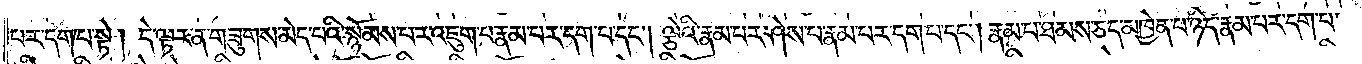པར་དག་པ་སྟེ། དེ་ལྟར་ན་གཟུགས་མེད་པའི་སྙོམས་པར་འཇུག་པ་རྣམ་པར་དག་པ་དང༌། ལྕེའི་རྣམ་པར་ཤེས་པ་རྣམ་པར་དག་པ་དང༌། རྣམ་པ་ཐམས་ཅད་མཁྱེན་པ་ཉིད་རྣམ་པར་དག་པ་
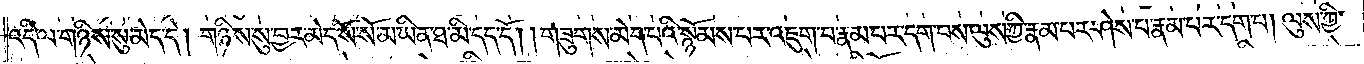འདི་ལ་གཉིས་སུ་མེད་དེ། གཉིས་སུ་བྱར་མེད་སོ་སོ་མ་ཡིན་ཐ་མི་དད་དོ། །གཟུགས་མེད་པའི་སྙོམས་པར་འཇུག་པ་རྣམ་པར་དག་པས་ལུས་ཀྱི་རྣམ་པར་ཤེས་པ་རྣམ་པར་དག་པ། ལུས་ཀྱི་
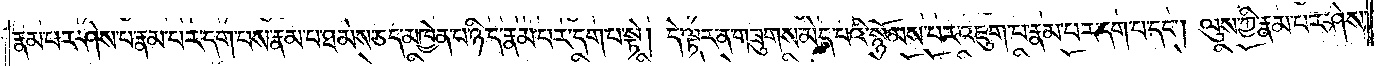རྣམ་པར་ཤེས་པ་རྣམ་པར་དག་པས་རྣམ་པ་ཐམས་ཅད་མཁྱེན་པ་ཉིད་རྣམ་པར་དག་པ་སྟེ། དེ་ལྟར་ན་གཟུགས་མེད་པའི་སྙོམས་པར་འཇུག་པ་རྣམ་པར་དག་པ་དང༌། ལུས་ཀྱི་རྣམ་པར་ཤེས་
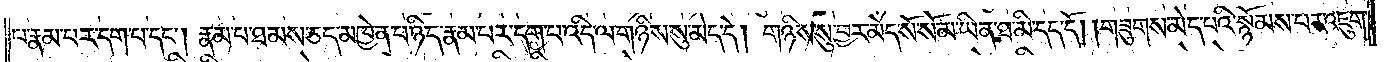པ་རྣམ་པར་དག་པ་དང༌། རྣམ་པ་ཐམས་ཅད་མཁྱེན་པ་ཉིད་རྣམ་པར་དག་པ་འདི་ལ་གཉིས་སུ་མེད་དེ། གཉིས་སུ་བྱར་མེད་སོ་སོ་མ་ཡིན་ཐ་མི་དད་དོ། །གཟུགས་མེད་པའི་སྙོམས་པར་འཇུག་
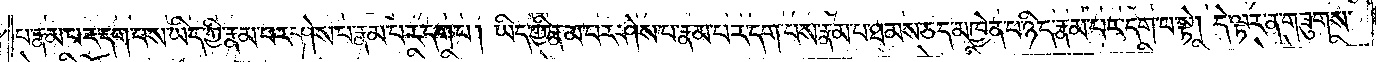པ་རྣམ་པར་དག་པས་ཡིད་ཀྱི་རྣམ་པར་ཤེས་པ་རྣམ་པར་དག་པ། ཡིད་ཀྱི་རྣམ་པར་ཤེས་པ་རྣམ་པར་དག་པས་རྣམ་པ་ཐམས་ཅད་མཁྱེན་པ་ཉིད་རྣམ་པར་དག་པ་སྟེ། དེ་ལྟར་ན་གཟུགས་
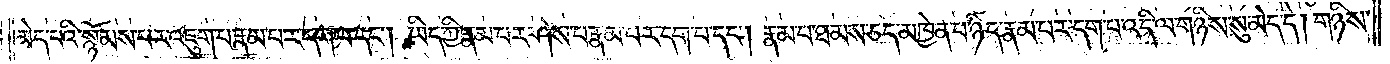མེད་པའི་སྙོམས་པར་འཇུག་པ་རྣམ་པར་དག་པ་དང༌། ཡིད་ཀྱི་རྣམ་པར་ཤེས་པ་རྣམ་པར་དག་པ་དང༌། རྣམ་པ་ཐམས་ཅད་མཁྱེན་པ་ཉིད་རྣམ་པར་དག་པ་འདི་ལ་གཉིས་སུ་མེད་དེ། གཉིས་
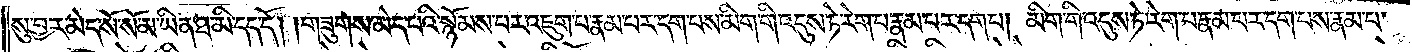སུ་བྱར་མེད་སོ་སོ་མ་ཡིན་ཐ་མི་དད་དོ། །གཟུགས་མེད་པའི་སྙོམས་པར་འཇུག་པ་རྣམ་པར་དག་པས་མིག་གི་འདུས་ཏེ་རེག་པ་རྣམ་པར་དག་པ། མིག་གི་འདུས་ཏེ་རེག་པ་རྣམ་པར་དག་པས་རྣམ་པ་
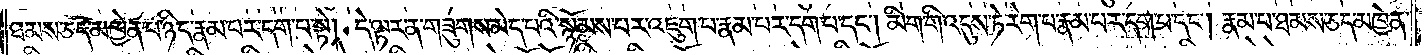ཐམས་ཅད་མཁྱེན་པ་ཉིད་རྣམ་པར་དག་པ་སྟེ། དེ་ལྟར་ན་གཟུགས་མེད་པའི་སྙོམས་པར་འཇུག་པ་རྣམ་པར་དག་པ་དང༌། མིག་གི་འདུས་ཏེ་རེག་པ་རྣམ་པར་དག་པ་དང༌། རྣམ་པ་ཐམས་ཅད་མཁྱེན་
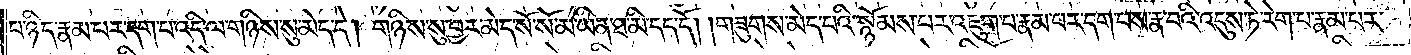པ་ཉིད་རྣམ་པར་དག་པ་འདི་ལ་གཉིས་སུ་མེད་དེ། གཉིས་སུ་བྱར་མེད་སོ་སོ་མ་ཡིན་ཐ་མི་དད་དོ། །གཟུགས་མེད་པའི་སྙོམས་པར་འཇུག་པ་རྣམ་པར་དག་པས་རྣམ་བའི་འདུས་ཏེ་རེག་པ་རྣམ་པར་
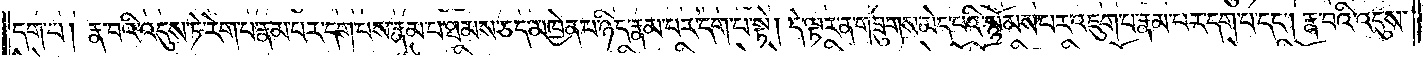དག་པ། རྣ་བའི་འདུས་ཏེ་རེག་པ་རྣམ་པར་དག་པས་རྣམ་པ་ཐམས་ཅད་མཁྱེན་པ་ཉིད་རྣམ་པར་དག་པ་སྟེ། དེ་ལྟར་ན་གཟུགས་མེད་པའི་སྙོམས་པར་འཇུག་པ་རྣམ་པར་དག་པ་དང༌། རྣ་བའི་འདུས་
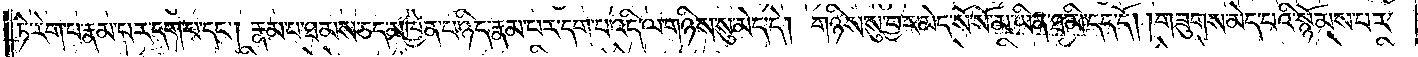ཏེ་རེག་པ་རྣམ་པར་དག་པ་དང༌། རྣམ་པ་ཐམས་ཅད་མཁྱེན་པ་ཉིད་རྣམ་པར་དག་པ་འདི་ལ་གཉིས་སུ་མེད་དེ། གཉིས་སུ་བྱར་མེད་སོ་སོ་མ་ཡིན་ཐ་མི་དད་དོ། །གཟུགས་མེད་པའི་སྙོམས་པར་
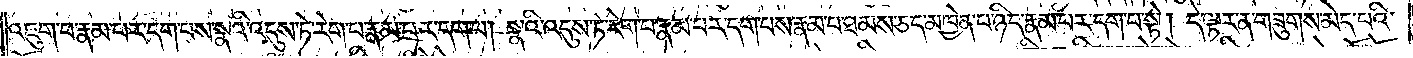འཇུག་པ་རྣམ་པར་དག་པས་སྣའི་འདུས་ཏེ་རེག་པ་རྣམ་པར་དག་པ། སྣའི་འདུས་ཏེ་རེག་པ་རྣམ་པར་དག་པས་རྣམ་པ་ཐམས་ཅད་མཁྱེན་པ་ཉིད་རྣམ་པར་དག་པ་སྟེ། དེ་ལྟར་ན་གཟུགས་མེད་པའི་
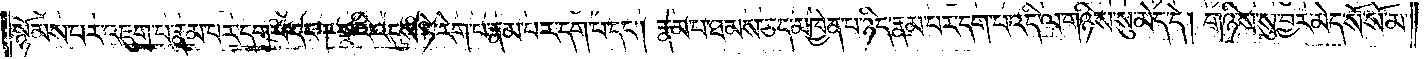སྙོམས་པར་འཇུག་པ་རྣམ་པར་དག་པ་དང༌། སྣའི་འདུས་ཏེ་རེག་པ་རྣམ་པར་དག་པ་དང༌། རྣམ་པ་ཐམས་ཅད་མཁྱེན་པ་ཉིད་རྣམ་པར་དག་པ་འདི་ལ་གཉིས་སུ་མེད་དེ། གཉིས་སུ་བྱར་མེད་སོ་སོ་མ་
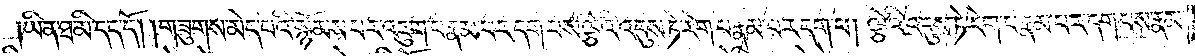ཡིན་ཐ་མི་དད་དོ། །གཟུགས་མེད་པའི་སྙོམས་པར་འཇུག་པ་རྣམ་པར་དག་པས་ལྕེའི་འདུས་ཏེ་རེག་པ་རྣམ་པར་དག་པ། ལྕེའི་འདུས་ཏེ་རེག་པ་རྣམ་པར་དག་པས་རྣམ་
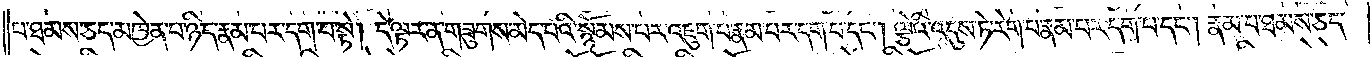པ་ཐམས་ཅད་མཁྱེན་པ་ཉིད་རྣམ་པར་དག་པ་སྟེ། དེ་ལྟར་ན་གཟུགས་མེད་པའི་སྙོམས་པར་འཇུག་པ་རྣམ་པར་དག་པ་དང༌། ལྕེའི་འདུས་ཏེ་རེག་པ་རྣམ་པར་དག་པ་དང༌། རྣམ་པ་ཐམས་ཅད་
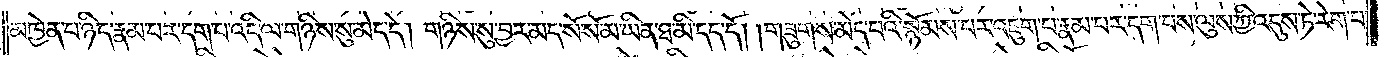མཁྱེན་པ་ཉིད་རྣམ་པར་དག་པ་འདི་ལ་གཉིས་སུ་མེད་དེ། གཉིས་སུ་བྱར་མེད་སོ་སོ་མ་ཡིན་ཐ་མི་དད་དོ། །གཟུགས་མེད་པའི་སྙོམས་པར་འཇུག་པ་རྣམ་པར་དག་པས་ལུས་ཀྱི་འདུས་ཏེ་རེག་པ་
